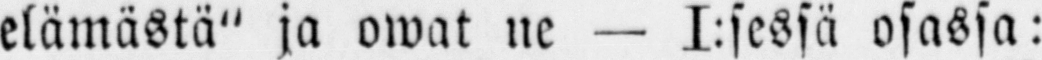elämästä" ja owat ne — I:sessä osassa:
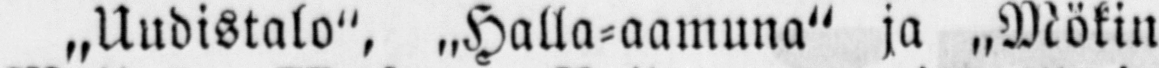„Uudistalo", „Halla-aamuna" ja „Mökin
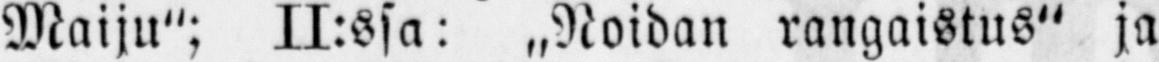Maiju"; II:ssa: „Noidan rangaistus" ja
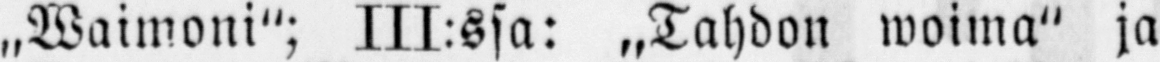„Waimoni"; III:ssa: „Tahdon woima" ja
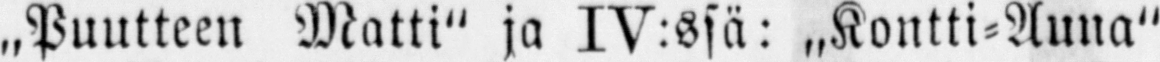„Puutteen Matti" ja IV:ssä: „Kontti-Auna"
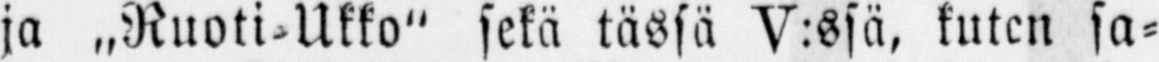ja „Ruoti-Ukko" sekä tässä V:ssä, kuten sa-
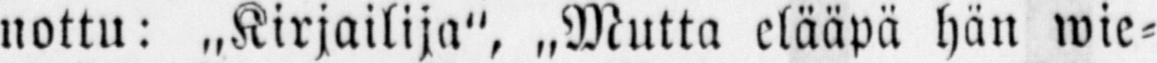nottu: „Kirjailija", „Mutta elääpä hän wie-
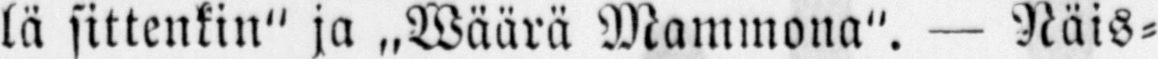lä sittenkin" ja „Wäärä Mammona". — Näis-
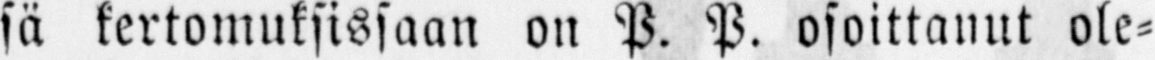sä kertomuksissaan on P. P. osoittanut ole-
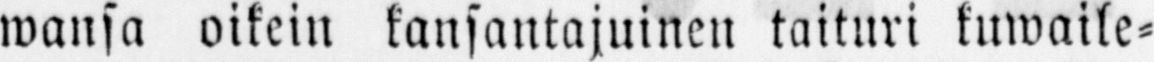mansa oikein kansantajuinen taituri kuwaile-
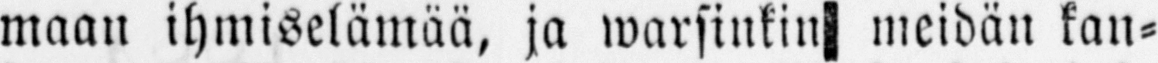maan ihmiselämää, ja warsinkin meidän kan-
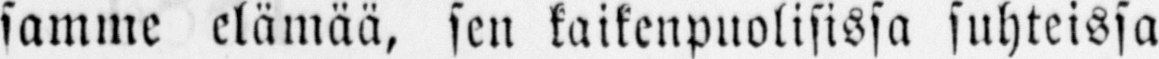samme elämää, sen kaikenpuolisissa suhteissa
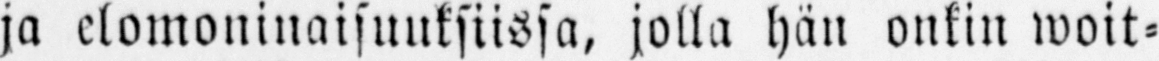ja elomoninaisuuksiissa, jolla hän onkin woit-
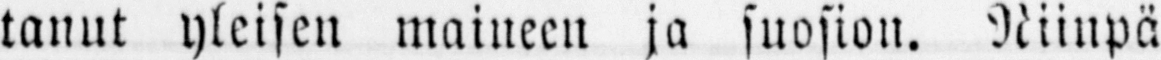tanut yleisen maineen ja suosion. Niinpä
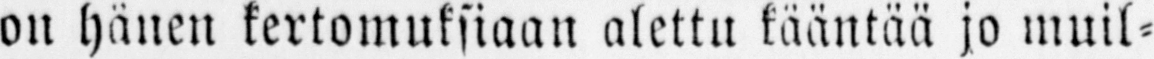on hänen kertomuksiaan alettu kääntää jo muil-
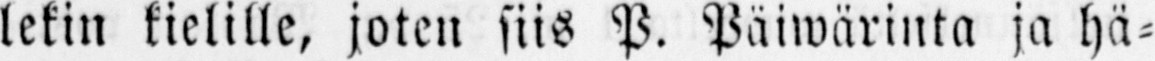lekin kielille, joten siis P. Päiwärinta ja hä-
